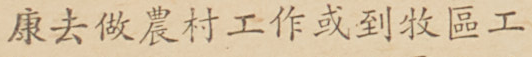康去做農村工作或到牧區工
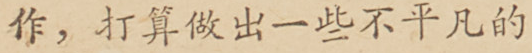作，打算做出一些不平凡的
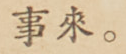事來。
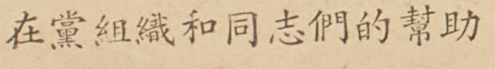在黨組織和同志們的幫助
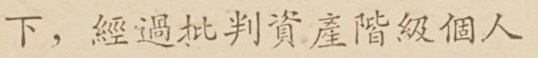下，經過批判資產階級個人
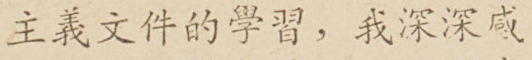主義文件的學習，我深深感
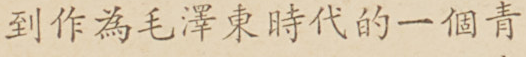到作為毛澤東時代的一個青
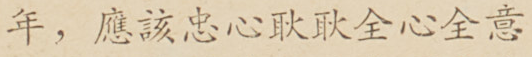年，應該忠心耿耿全心全意
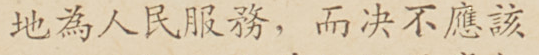地為人民服務，而決不應該
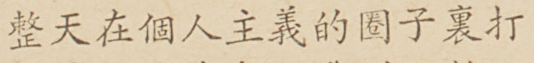整天在個人主義的圈子裏打
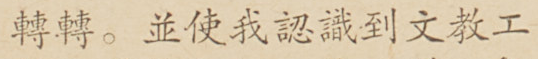轉轉。並使我認識到文教工
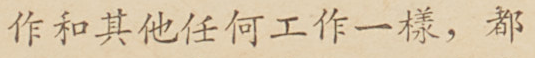作和其他任何工作一樣，都
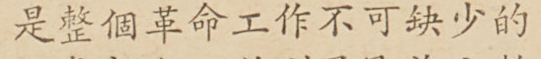是整個革命工作不可缺少的
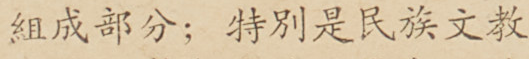組成部分；特別是民族文教
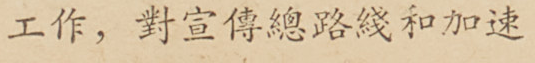工作，對宣傳總路綫和加速
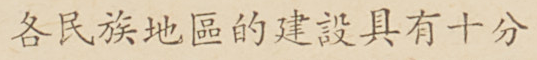各民族地區的建設具有十分
